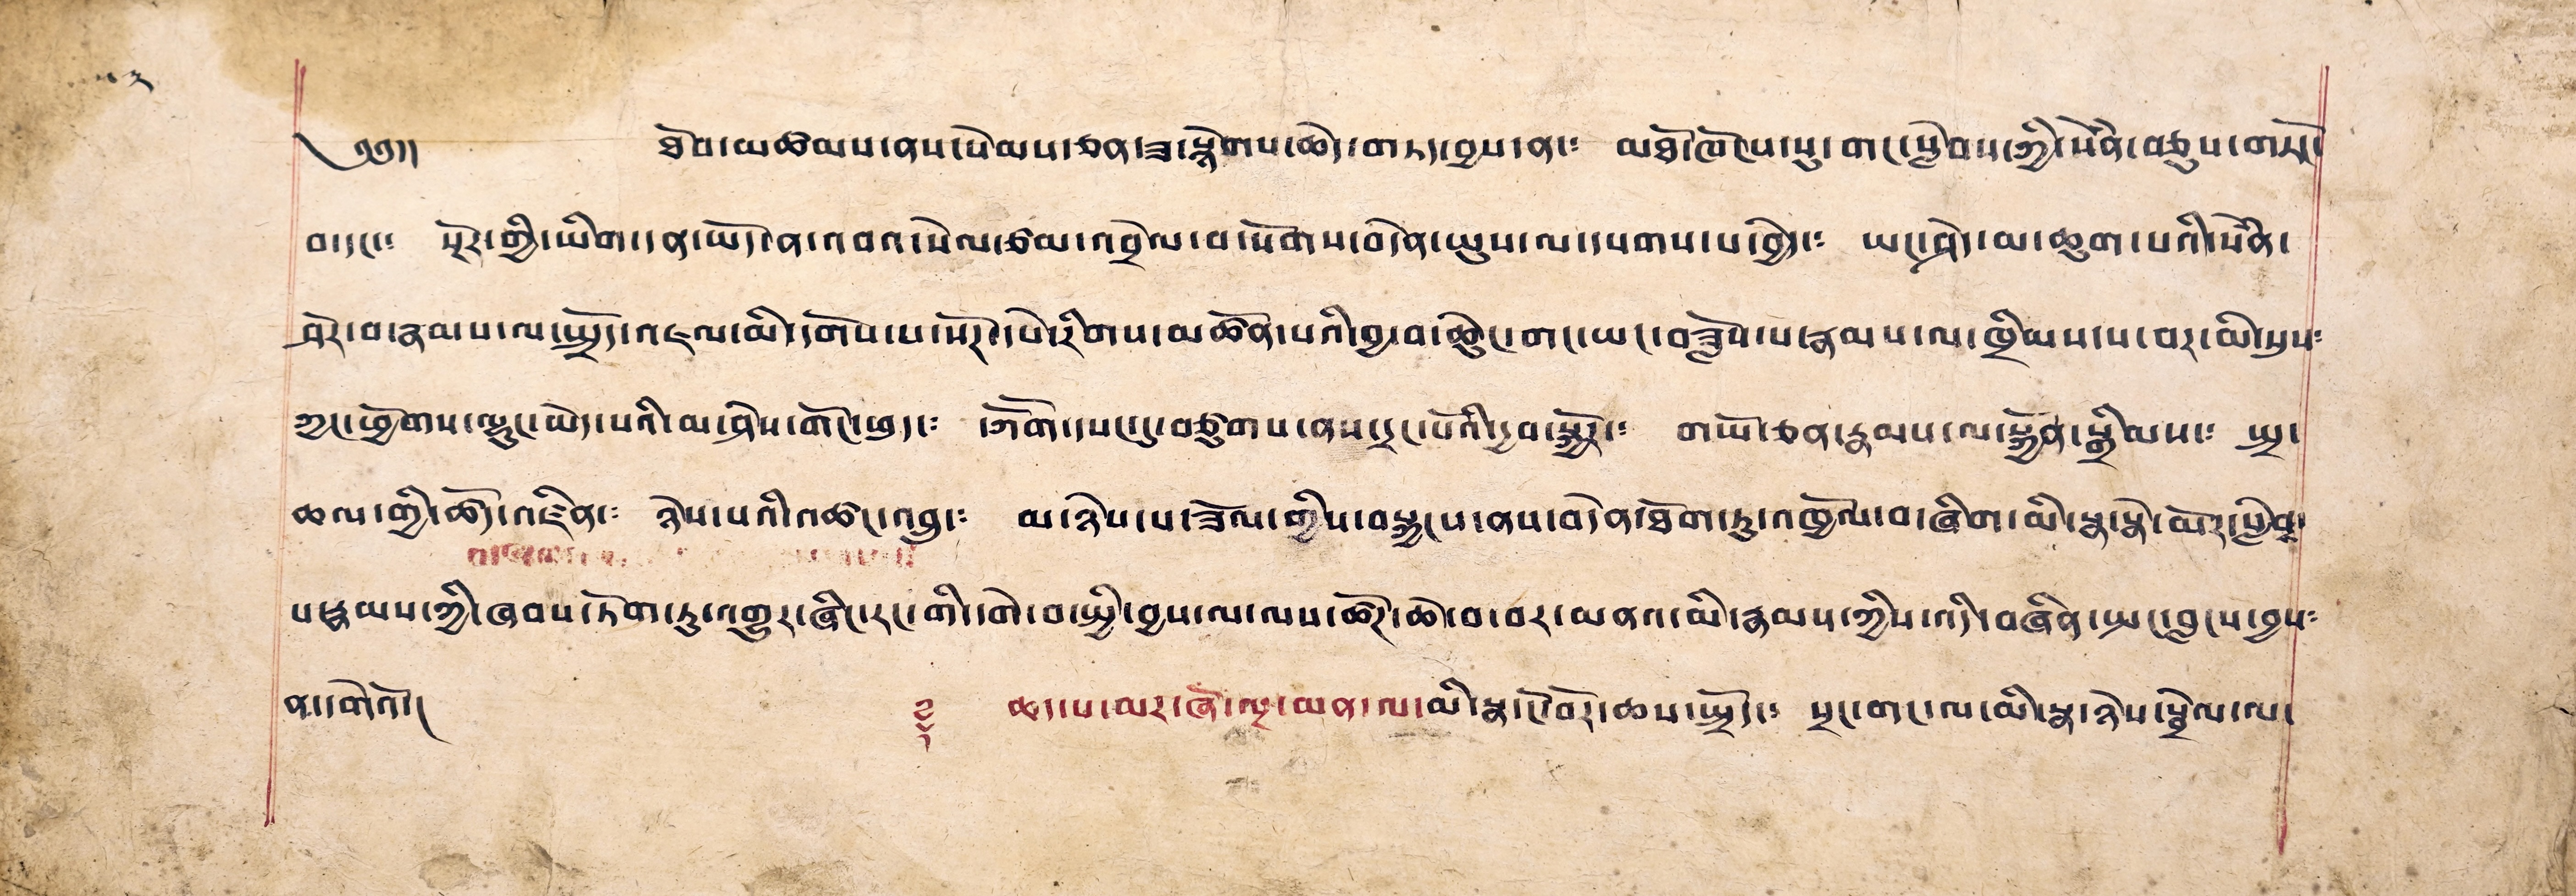༄༅།། ཐོབ་མཚམས་ནས་སེམས་ཅན་ཟ་སྐོགས་ཆེད་གཏང་བྱས་ན་༴ མཐོ་ཁོངས་སུ་གང་སླེབས་ཀྱི་སེཾན་བཅུས་གཏོང་
བ་དང་༴ སྔོར་གྱི་ཡིག་དན་ཡོད་ན་འབའ་སེལ་ཙམ་འབྲེལ་བ་སོགས་བདེན་ཡུས་ལ་དཔགས་པ་བྱེད་༴ ཡང་ཤེད་མ་ཆུག་པའི་སེཾན་
ཤེར་བ་རྣམས་ལ་སྤྲོད་འཇལ་མི་དགོས་པ་སོཊ་དཔེ་རིགས་མཚོན་པའི་བྱ་བ་ཆེུང་གང་ཡང་བཟློས་པ་རྣམས་ལ་ཁྲིམས་ས་བར་མི་སུས༴
ཀྱང་ཕྱོགས་ལྷུང་ཡོད་པའི་མ་ཤེས་གོང་ཕུད་༴ དཀོན་མཆོག་དཔང་དུ་བཙུགས་ནས་དྲང་པོའི་དྱབ་སྐྱོར་༴ གཡོ་ཅན་རྣམས་ལ་སྐྱོན་སྒྲིམས་༴ སྤྲ་
ཆལ་གྱི་ཚོད་འཛིན་༴ ཉེས་པའི་འཚང་འབྲུ་༴ མ་ཉེས་པ་ཟོལ་གྱིས་བསྐྱངས་ནས་བདེན་ཐོག་ཏུ་འཁྱོལ་བ་ཞིག་མི་སྣ་སྣེ་མོར་སླེབྶ་
པ་རྣམས་ཀྱི་ཞབས་ཏོག་ཏུ་འགྱུར་ཞིང་རང་གི་དགེ་བ་སྤྱི་བྱས་ལ་ལས་ཚོཊ་ཆེ་བ་བར་མནའ་མི་རྣམས་ཀྱིས་འདི་བཞིན་སྤང་བླངས་བྱས༴
ན་དགེའོ།། ༈ ཆད་པ་མར་ཞོ་ལྔ་མན་ལ་མི་སྣ་ངོ་བོར་ཆས་སྤྲོད་༴ སྲང་གང་ལ་མི་སྣ་ཉེས་སྦྲེལ་ལ་
